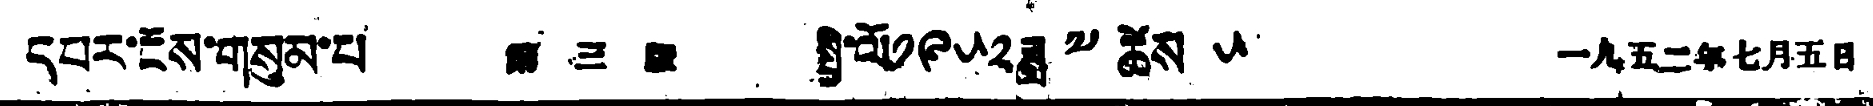དཔར་ངོས་གསུམ་པ 第三版 སྤྱི་ལོ༡༩༥༢ཟླ ༧ ཚེས ༥ 一九五二年七月五日
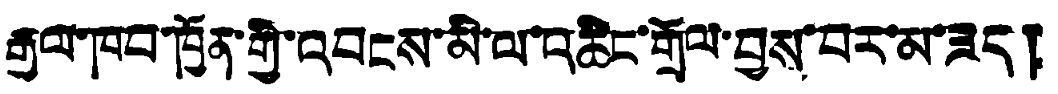རྒྱལ་ཁབ་ཁྱོན་འབངས་མི་ལ་འཆིང་གྲོལ་བྱས་པར་མ་ཟད།
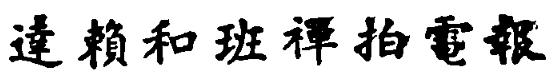達賴和班禪拍電報
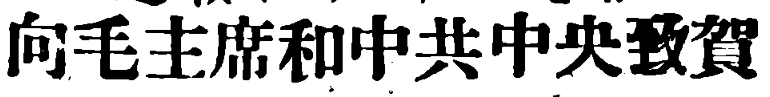向毛主席和中共中央致賀
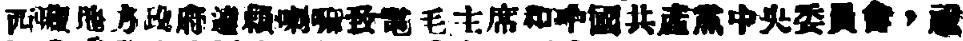西藏地方政府達賴喇嘛致電毛主席和中國共產黨中央委員會，祝
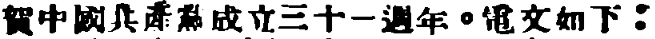賀中國共產黨成立三十一週年。電文如下：
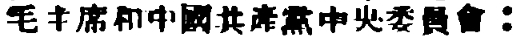毛主席和中國共產黨中央委員會：
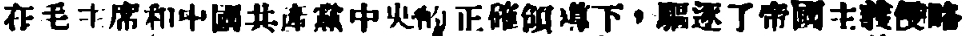在毛主席和中國共產黨中央的正確領導下，驅逐了帝國主義侵略
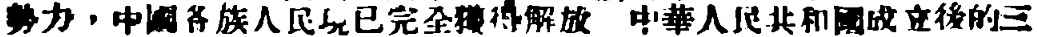勢力，中國各族人民現已完全獲得解放。中華人民共和國成立後的三
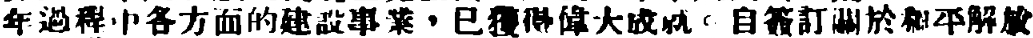年過程中各方面的建設事業，已獲得偉大成就。自簽訂關於和平解放
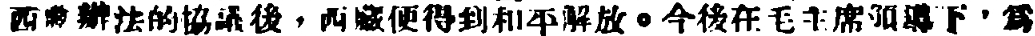西藏辦法的協議後，西藏便得到和平解放。今後在毛主席領導下，爲
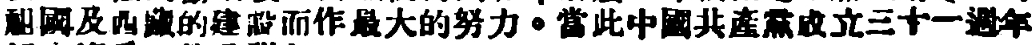祖國及西藏的建設而作最大的努力。當此中國共產黨成立三十一週年
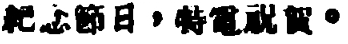紀念節日，特電祝賀。
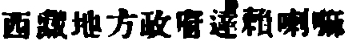西藏地方政府達賴喇嘛
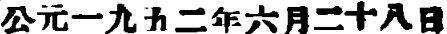公元一九五二年六月二十八日
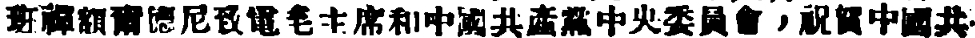班禪額爾德尼致電毛主席和中國共產黨中央委員會，祝賀中國共
